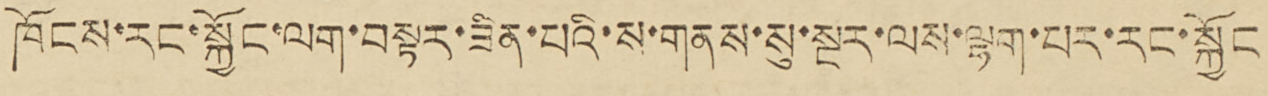ཁོངས་རང་སྐྱོང་ལག་བསྟར་ཟིན་པའི་ས་གནས་སུ་སྔར་ལས་ལྷག་པར་རང་སྐྱོང
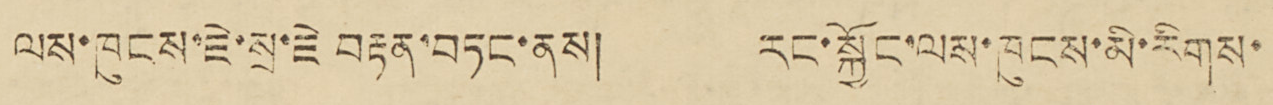ལས་ཁུངས་ཇེ་སྲ་རྗེ བརྟན་བཏང་ནས། རང་སྐྱོང་ལས་ཁུངས་མི་རིགས་
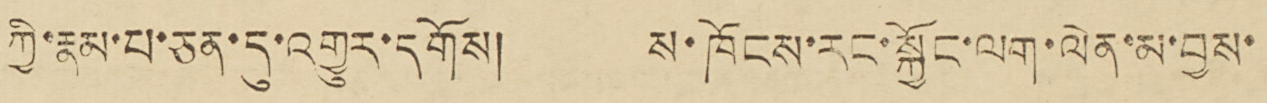ཀྱི་རྣམ་པ་ཅན་དུ་འགྱུར་དགོས། ས་ཁོངས་རང་སྐྱོང་ལག་ལེན་མ་བྱས་
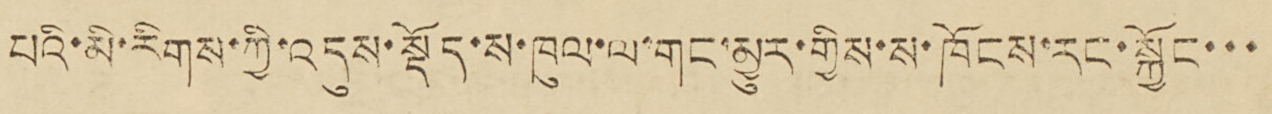པའི་མི་རིགས་ཀྱི་འདུས་སྡོད་ས་ཁུལ་ལ་གང་མྱུར་གྱིས་ས་ཁོངས་རང་སྐྱོང་་་
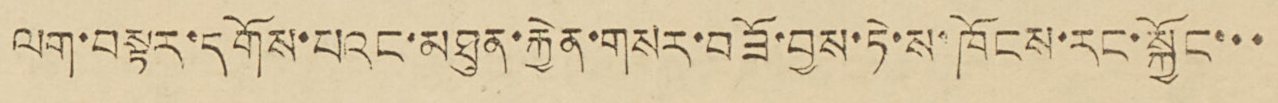ལག་བསྟར་དགོས་པའང་མཐུན་རྐྱེན་གསར་བཟོ་བྱས་ཏེ་ས་ཁོངས་རང་སྐྱོང་་་
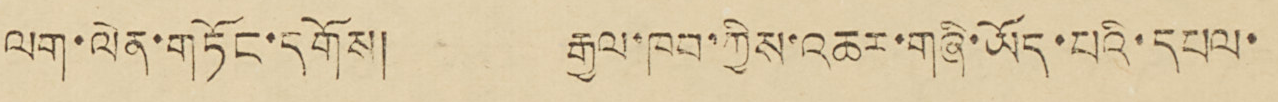ལག་ལེན་གཏོང་དགོས། རྒྱལ་ཁབ་ཀྱིས་འཆར་གཞི་ཡོད་པའི་དཔལ་
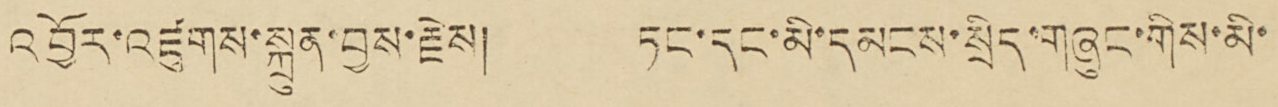འབྱོར་འཛུགས་སྐྲུན་བྱས་རྗེས། ཏང་དང་མི་དམངས་སྲིད་གཞུང་གིས་མི་
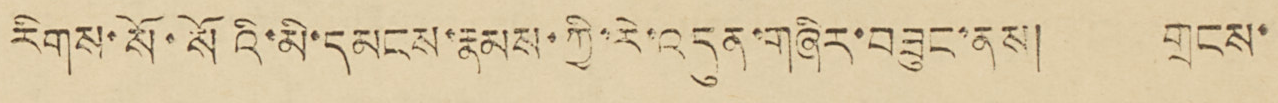རིགས་སོ་སོའི་མི་དམངས་རྣམས་ཀྱི་རེ་འདུན་གཞིར་བཟུང་ནས། གྲངས་
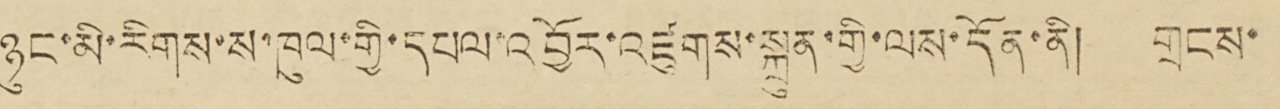ཉུང་མི་རིགས་ས་ཁུལ་གྱི་དཔལ་འབྱོར་འཛུགས་སྐྲུན་གྱི་ལམ་དོན་ནི། གྲངས་
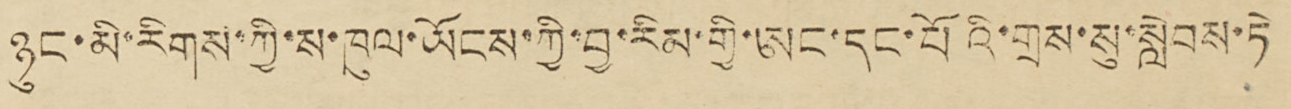ཉུང་མི་རིགས་ཀྱི་ས་ཁུལ་ཡོངས་ཀྱི་བྱ་རིམ་གྱི་ཨང་དང་པོའི་གྲས་སུ་སླེབས་ཏེ
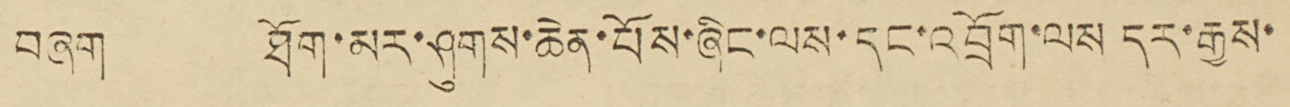བཞག ཐོག་མར་ཤུགས་ཆེན་པོས་ཞིང་ལས་དང་འབྲོག་ལས དར་རྒྱས་
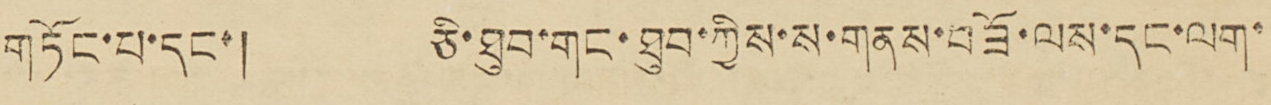གཏོང་པ་དང་། ཅི་ཐུབ་གང་ཐུབ་ཀྱིས་ས་གནས་བཟོ་ལས་དང་ལག་
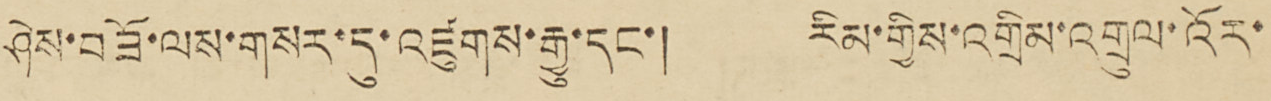ཤེས་བཟོ་ལས་གསར་དུ་འཛུགས་རྒྱུ་དང་། རིམ་གྱིས་འགྲིམ་འགྲུལ་འོར་
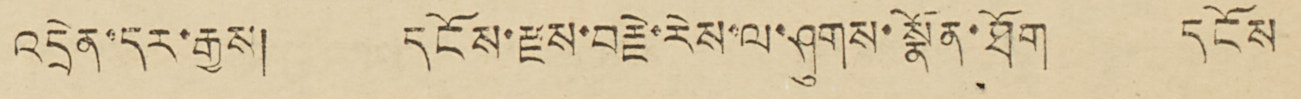འདྲེན་དར་རྒྱས། དངོས་རྫས་བརྗེ་རེས་ལ་ཤུགས་སྣོན་ཐོག དངོས
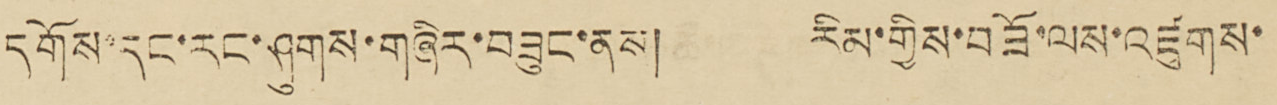དགོས་དང་རང་ཤུགས་གཞིར་བཟུང་ནས། རིམ་གྱིས་བཟོ་ལས་འཛུགས་
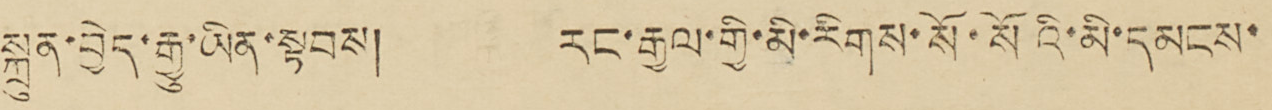སྐྲུན་བྱེད་རྒྱུ་ཡིན་སྟབས། རང་རྒྱལ་གྱི་མི་རིགས་སོ་སོའི་མི་དམངས་
